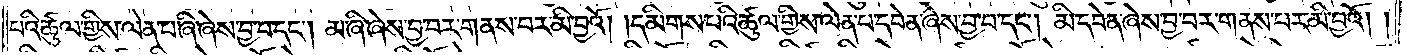པའི་ཚུལ་གྱིས་ལེན་པ་ཞི་ཞེས་བྱ་བ་དང༌། མ་ཞི་ཞེས་བྱ་བར་གནས་པར་མི་བྱའོ། །དམིགས་པའི་ཚུལ་གྱིས་ལེན་པ་དབེན་ཞེས་བྱ་བ་དང༌། མི་དབེན་ཞེས་བྱ་བར་གནས་པར་མི་བྱའོ། །
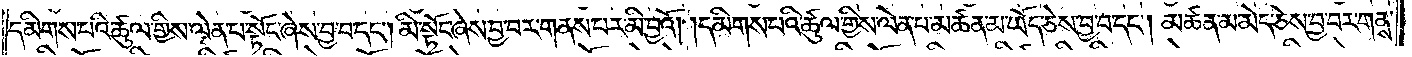དམིགས་པའི་ཚུལ་གྱིས་ལེན་པ་སྟོང་ཞེས་བྱ་བ་དང༌། མི་སྟོང་ཞེས་བྱ་བར་གནས་པར་མི་བྱའོ། །དམིགས་པའི་ཚུལ་གྱིས་ལེན་པ་མཚན་མ་ཡོད་ཅེས་བྱ་བ་དང༌། མཚན་མ་མེད་ཅེས་བྱ་བར་གནས་
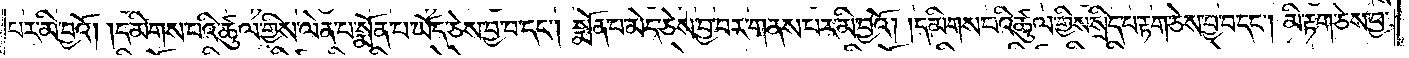པར་མི་བྱའོ། །དམིགས་པའི་ཚུལ་གྱིས་ལེན་པ་སྨོན་པ་ཡོད་ཅེས་བྱ་བ་དང༌། སྨོན་པ་མེད་ཅེས་བྱ་བར་གནས་པར་མི་བྱའོ། །དམིགས་པའི་ཚུལ་གྱིས་སྲིད་པ་རྟག་ཅེས་བྱ་བ་དང༌། མི་རྟག་ཅེས་བྱ་
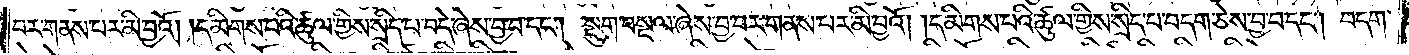བར་གནས་པར་མི་བྱའོ། །དམིགས་པའི་ཚུལ་གྱིས་སྲིད་པ་བདེ་ཞེས་བྱ་བ་དང༌། །སྡུག་བསྔལ་ཞེས་བྱ་བར་གནས་པར་མི་བྱའོ། །དམིགས་པའི་ཚུལ་གྱིས་སྲིད་པ་བདག་ཅེས་བྱ་བ་དང༌། བདག་
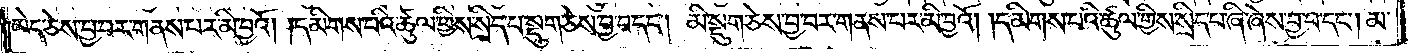མེད་ཅེས་བྱ་བར་གནས་པར་མི་བྱའོ། །དམིགས་པའི་ཚུལ་གྱིས་སྲིད་པ་སྡུག་ཅེས་བྱ་བ་དང༌། མི་སྡུག་ཅེས་བྱ་བར་གནས་པར་མི་བྱའོ། །དམིགས་པའི་ཚུལ་གྱིས་སྲིད་པ་ཞི་ཞེས་བྱ་བ་དང༌། མ་
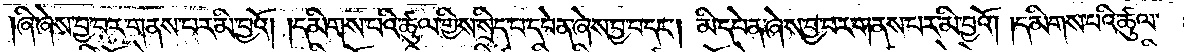ཞི་ཞེས་བྱ་བར་གནས་པར་མི་བྱའོ། །དམིགས་པའི་ཚུལ་གྱིས། སྲིད་པ་དབེན་ཞེས་བྱ་བ་དང༌། མི་དབེན་ཞེས་བྱ་བར་གནས་པར་མི་བྱའོ། །དམིགས་པའི་ཚུལ་
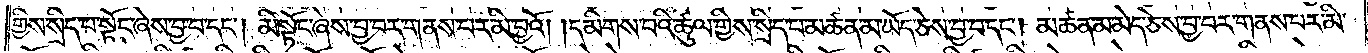གྱིས་སྲིད་པ་སྟོང་ཞེས་བྱ་བ་དང༌། མི་སྟོང་ཞེས་བྱ་བར་གནས་པར་མི་བྱའོ། །དམིགས་པའི་ཚུལ་གྱིས་སྲིད་པ་མཚན་མ་ཡོད་ཅེས་བྱ་བ་དང༌། མཚན་མ་མེད་ཅེས་བྱ་བར་གནས་པར་མི་
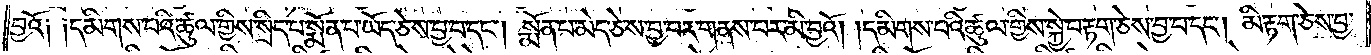བྱའོ། །དམིགས་པའི་ཚུལ་གྱིས་སྲིད་པ་སྨོན་པ་ཡོད་ཅེས་བྱ་བ་དང༌། སྨོན་པ་མེད་ཅེས་བྱ་བར་གནས་པར་མི་བྱའོ། །དམིགས་པའི་ཚུལ་གྱིས་སྐྱེ་བ་རྟག་ཅེས་བྱ་བ་དང༌། མི་རྟག་ཅེས་བྱ་
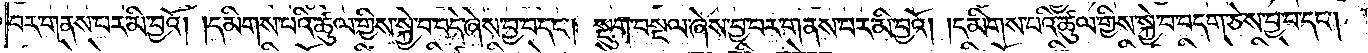བར་གནས་པར་མི་བྱའོ། །དམིགས་པའི་ཚུལ་གྱིས་སྐྱེ་བ་བདེ་ཞེས་བྱ་བ་དང༌། སྡུག་བསྔལ་ཞེས་བྱ་བར་གནས་པར་མི་བྱའོ། །དམིགས་པའི་ཚུལ་གྱིས་སྐྱེ་བ་བདག་ཅེས་བྱ་བ་དང༌།
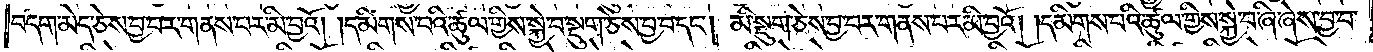བདག་མེད་ཅེས་བྱ་བར་གནས་པར་མི་བྱའོ། །དམིགས་པའི་ཚུལ་གྱིས་སྐྱེ་བ་སྡུག་ཅེས་བྱ་བ་དང༌། མི་སྡུག་ཅེས་བྱ་བར་གནས་པར་མི་བྱའོ། །དམིགས་པའི་ཚུལ་གྱིས་སྐྱེ་བ་ཞི་ཞེས་བྱ་བ་
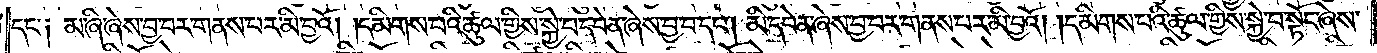དང༌༏ མ་ཞི་ཞེས་བྱ་བར་གནས་པར་མི་བྱའོ། །དམིགས་པའི་ཚུལ་གྱིས་སྐྱེ་བ་དབེན་ཞེས་བྱ་བ་དང༌། མི་དབེན་ཞེས་བྱ་བར་གནས་པར་མི་བྱའོ། །དམིགས་པའི་ཚུལ་གྱིས་སྐྱེ་བ་སྟོང་ཞེས་
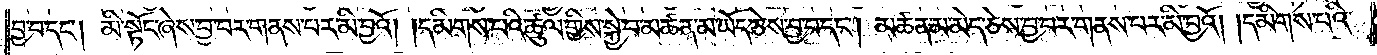བྱ་བ་དང༌། མི་སྟོང་ཞེས་བྱ་བར་གནས་པར་མི་བྱའོ། །དམིགས་པའི་ཚུལ་གྱིས་སྐྱེ་བ་མཚན་མ་ཡོད་ཅེས་བྱ་བ་དང༌། མཚན་མ་མེད་ཅེས་བྱ་བར་གནས་པར་མི་བྱའོ། །དམིགས་པའི་
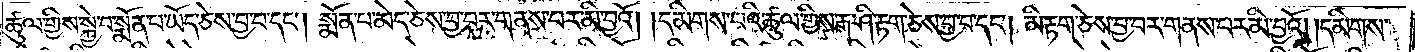ཚུལ་གྱིས་སྐྱེ་བ་སྨོན་པ་ཡོད་ཅེས་བྱ་བ་དང༌། སྨོན་པ་མེད་ཅེས་བྱ་བར་གནས་པར་མི་བྱའོ། །དམིགས་པའི་ཚུལ་གྱིས་རྒ་ཤི་རྟག་ཅེས་བྱ་བ་དང༌། མི་རྟག་ཅེས་བྱ་བར་གནས་པར་མི་བྱའོ། །དམིགས་
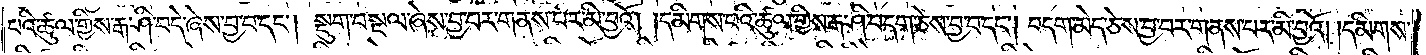པའི་ཚུལ་གྱིས་རྒ་ཤི་བདེ་ཞེས་བྱ་བ་དང༌། སྡུག་བསྔལ་ཞེས་བྱ་བར་གནས་པར་མི་བྱའོ། །དམིགས་པའི་ཚུལ་གྱིས་རྒ་ཤི་བདག་ཅེས་བྱ་བ་དང༌། བདག་མེད་ཅེས་བྱ་བར་གནས་པར་མི་བྱའོ། །དམིགས་
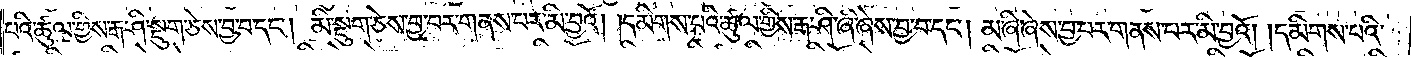པའི་ཚུལ་གྱིས་རྒ་ཤི་སྡུག་ཅེས་བྱ་བ་དང༌། མི་སྡུག་ཅེས་བྱ་བར་གནས་པར་མི་བྱའོ། །དམིགས་པའི་ཚུལ་གྱིས་རྒ་ཤི་ཞི་ཞེས་བྱ་བ་དང༌། མ་ཞི་ཞེས་བྱ་བར་གནས་པར་མི་བྱའོ། །དམིགས་པའི་
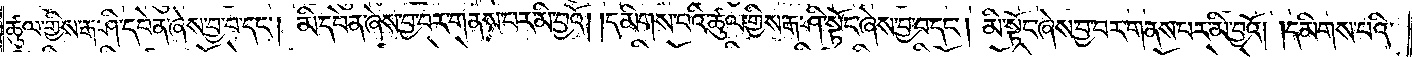ཚུལ་གྱིས་རྒ་ཤི་དབེན་ཞེས་བྱ་བ་དང༌། མི་དབེན་ཞེས་བྱ་བར་གནས་པར་མི་བྱའོ། །དམིགས་པའི་ཚུལ་གྱིས་རྒ་ཤི་སྟོང་ཞེས་བྱ་བ་དང༌། མི་སྟོང་ཞེས་བྱ་བར་གནས་པར་མི་བྱའོ། །དམིགས་པའི་
